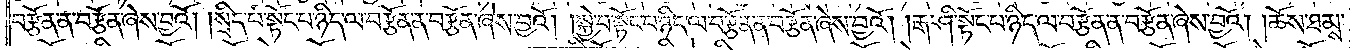བརྩོན་ན་བརྩོན་ཞེས་བྱའོ། །སྲིད་པ་སྟོང་པ་ཉིད་ལ་བརྩོན་ན་བརྩོན་ཞེས་བྱའོ། །སྐྱེ་བ་སྟོང་པ་ཉིད་ལ་བརྩོན་ན་བརྩོན་ཞེས་བྱའོ། །རྒ་ཤི་སྟོང་པ་ཉིད་ལ་བརྩོན་ན་བརྩོན་ཞེས་བྱའོ། །ཆོས་ཐམས་
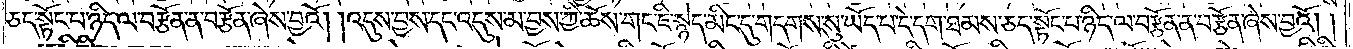ཅད་སྟོང་པ་ཉིད་ལ་བརྩོན་ན་བརྩོན་ཞེས་བྱའོ། །འདུས་བྱས་དང་འདུས་མ་བྱས་ཀྱི་ཆོས་གང་ཇི་སྙེད་མིང་དུ་གདགས་སུ་ཡོད་པ་དེ་དག་ཐམས་ཅད་སྟོང་པ་ཉིད་ལ་བརྩོན་ན་བརྩོན་ཞེས་བྱའོ། །
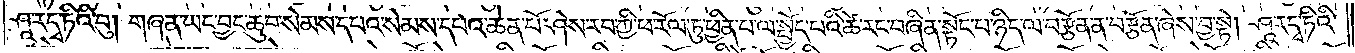ཤཱ་རདྭ་ཏིའི་བུ། གཞན་ཡང་བྱང་ཆུབ་སེམས་དཔའ་སེམས་དཔའ་ཆེན་པོ་ཤེས་རབ་ཀྱི་ཕ་རོལ་ཏུ་ཕྱིན་པ་ལ་སྤྱོད་པའི་ཚེ་རང་བཞིན་སྟོང་པ་ཉིད་ལ་བརྩོན་ན་བརྩོན་ཞེས་བྱ་སྟེ། ཤཱ་རདྭ་ཏིའི་
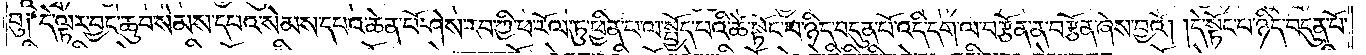བུ༑ དེ་ལྟར་བྱང་ཆུབ་སེམས་དཔའ་སེམས་དཔའ་ཆེན་པོ་ཤེས་རབ་ཀྱི་ཕ་རོལ་ཏུ་ཕྱིན་པ་ལ་སྤྱོད་པའི་ཚེ་སྟོང་པ་ཉིད་བདུན་པོ་འདི་དག་ལ་བརྩོན་ན་བརྩོན་ཞེས་བྱའོ། །དེ་སྟོང་པ་ཉིད་བདུན་པོ་
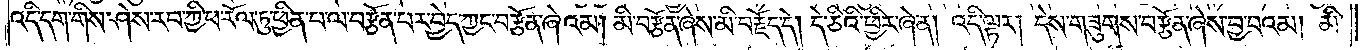འདི་དག་གིས་ཤེས་རབ་ཀྱི་ཕ་རོལ་ཏུ་ཕྱིན་པ་ལ་བརྩོན་པར་བྱེད་ཀྱང་བརྩོན་ཞེའམ། མི་བརྩོན་ཞེས་མི་བརྗོད་དེ། དེ་ཅིའི་ཕྱིར་ཞེ་ན། འདི་ལྟར། དེས་གཟུགས་བརྩོན་ཞེས་བྱ་བའམ། མི་
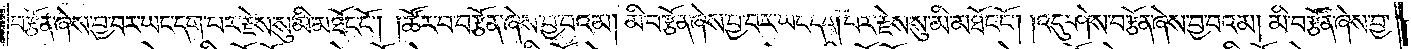བརྩོན་ཞེས་བྱ་བར་ཡང་དག་པར་རྗེས་སུ་མི་མཐོང་ངོ༌། །ཚོར་བ་བརྩོན་ཞེས་བྱ་བའམ། མི་བརྩོན་ཞེས་བྱ་བར་ཡང་དག་པར་རྗེས་སུ་མི་མཐོང་ངོ༌། །འདུ་ཤེས་བརྩོན་ཞེས་བྱ་བའམ། མི་བརྩོན་ཞེས་བྱ་
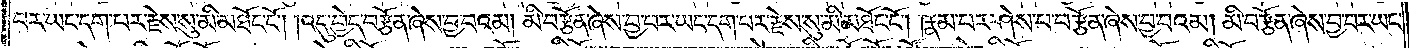བར་ཡང་དག་པར་རྗེས་སུ་མི་མཐོང་ངོ༌། །འདུ་བྱེད་བརྩོན་ཞེས་བྱ་བའམ། མི་བརྩོན་ཞེས་བྱ་བར་ཡང་དག་པར་རྗེས་སུ་མི་མཐོང་ངོ༌། །རྣམ་པར་ཤེས་པ་བརྩོན་ཞེས་བྱ་བའམ། མི་བརྩོན་ཞེས་བྱ་བར་ཡང་
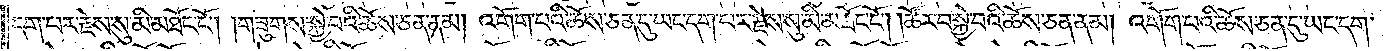དག་པར་རྗེས་སུ་མི་མཐོང་ངོ༌། །གཟུགས་སྐྱེ་བའི་ཆོས་ཅན་ནམ། འགོག་པའི་ཆོས་ཅན་དུ་ཡང་དག་པར་རྗེས་སུ་མི་མཐོང་ངོ༌། །ཚོར་བ་སྐྱེ་བའི་ཆོས་ཅན་ནམ། འགོག་པའི་ཆོས་ཅན་དུ་ཡང་དག་
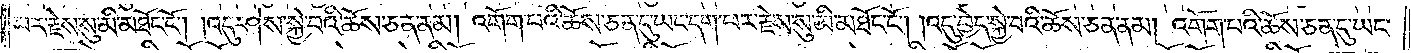པར་རྗེས་སུ་མི་མཐོང་ངོ༌། །འདུ་ཤེས་སྐྱེ་བའི་ཆོས་ཅན་ནམ། འགོག་པའི་ཆོས་ཅན་དུ་ཡང་དག་པར་རྗེས་སུ་མི་མཐོང་ངོ༌། །འདུ་བྱེད་སྐྱེ་བའི་ཆོས་ཅན་ནམ། འགོག་པའི་ཆོས་ཅན་དུ་ཡང་
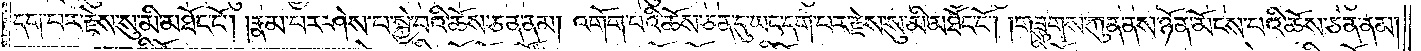དག་པར་རྗེས་སུ་མི་མཐོང་ངོ༌། །རྣམ་པར་ཤེས་པ་སྐྱེ་བའི་ཆོས་ཅན་ནམ། འགོག་པའི་ཆོས་ཅན་དུ་ཡང་དག་པར་རྗེས་སུ་མི་མཐོང་ངོ༌། །གཟུགས་ཀུན་ནས་ཉོན་མོངས་པའི་ཆོས་ཅན་ནམ།
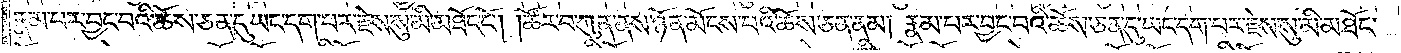རྣམ་པར་བྱང་བའི་ཆོས་ཅན་དུ་ཡང་དག་པར་རྗེས་སུ་མི་མཐོང་ངོ༌། །ཚོར་བ་ཀུན་ནས་ཉོན་མོངས་པའི་ཆོས་ཅན་ནམ། རྣམ་པར་བྱང་བའི་ཆོས་ཅན་དུ་ཡང་དག་པར་རྗེས་སུ་མི་མཐོང་
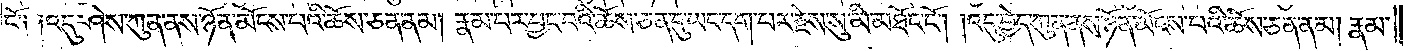ངོ༑ ༑འདུ་ཤེས་ཀུན་ནས་ཉོན་མོངས་པའི་ཆོས་ཅན་ནམ། རྣམ་པར་བྱང་བའི་ཆོས་ཅན་དུ་ཡང་དག་པར་རྗེས་སུ་མི་མཐོང་ངོ༌། །འདུ་བྱེད་ཀུན་ནས་ཉོན་མོངས་པའི་ཆོས་ཅན་ནམ། རྣམ་
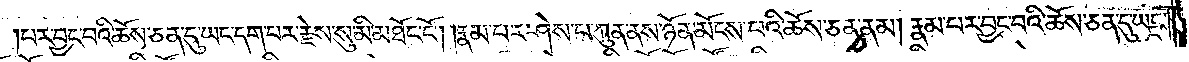པར་བྱང་བའི་ཆོས་ཅན་དུ་ཡང་དག་པར་རྗེས་སུ་མི་མཐོང་ངོ༌། །རྣམ་པར་ཤེས་པ་ཀུན་ནས་ཉོན་མོངས་པའི་ཆོས་ཅན་ནམ། རྣམ་པར་བྱང་བའི་ཆོས་ཅན་དུ་ཡང་
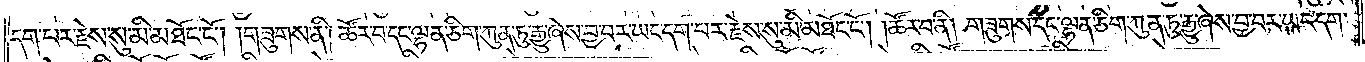དག་པར་རྗེས་སུ་མི་མཐོང་ངོ༌། །གཟུགས་ནི། །ཚོར་བ་དང་ལྷན་ཅིག་ཀུན་ཏུ་རྒྱུ་ཞེས་བྱ་བར་ཡང་དག་པར་རྗེས་སུ་མི་མཐོང་ངོ༌། །ཚོར་བ་ནི། གཟུགས་དང་ལྷན་ཅིག་ཀུན་ཏུ་རྒྱུ་ཞེས་བྱ་བར་ཡང་དག་
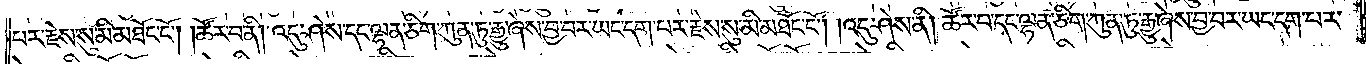པར་རྗེས་སུ་མི་མཐོང་ངོ༌། །ཚོར་བ་ནི། འདུ་ཤེས་དང་ལྷན་ཅིག་ཀུན་ཏུ་རྒྱུ་ཞེས་བྱ་བར་ཡང་དག་པར་རྗེས་སུ་མི་མཐོང་ངོ༌། །འདུ་ཤེས་ནི། ཚོར་བ་དང་ལྷན་ཅིག་ཀུན་ཏུ་རྒྱུ་ཞེས་བྱ་བར་ཡང་དག་པར་
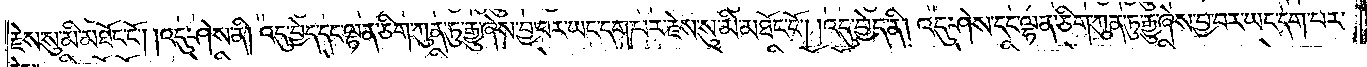རྗེས་སུ་མི་མཐོང་ངོ༌། །འདུ་ཤེས་ནི། འདུ་བྱེད་དང་ལྷན་ཅིག་ཀུན་ཏུ་རྒྱུ་ཞེས་བྱ་བར་ཡང་དག་པར་རྗེས་སུ་མི་མཐོང་ངོ༌། །འདུ་བྱེད་ནི། འདུ་ཤེས་དང་ལྷན་ཅིག་ཀུན་ཏུ་རྒྱུ་ཞེས་བྱ་བར་ཡང་དག་པར་
